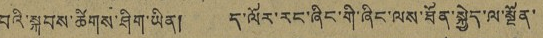བའི་སྐབས་ཚིགས་ཤིག་ཡིན། ད་ལོར་རང་ཞིང་གི་ཞིང་ལས་ཐོན་སྐྱེད་ལ་སྔོན་
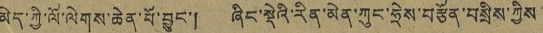མེད་ཀྱི་ལོ་ལེགས་ཆེན་པོ་བྱུང་། ཞིང་སྡེའི་རིན་མེན་ཀུང་ཧྲེས་བརྩོན་བསྲིས་ཀྱིས
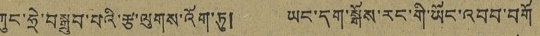ཀུང་ཧྲེ་བསྒྲུབ་པའི་རྩ་ལུགས་འོག་ཏུ། ཡང་དག་སྒོས་རང་གི་ཡོང་འབབ་བགོ
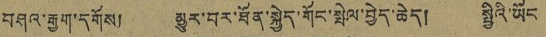བཤའ་རྒྱག་དགོས། མྱུར་བར་ཐོན་སྐྱེད་གོང་སྤེལ་བྱེད་ཆེད། སྤྱིའི་ཡོང
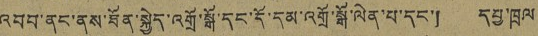འབབ་ནང་ནས་ཐོན་སྐྱེད་འགྲོ་སྒོ་དང་དོ་དམ་འགྲོ་སྒོ་ལེན་པ་དང་། དཔྱ་ཁྲལ
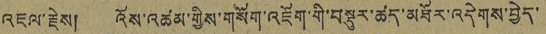འཇལ་རྗེས། འོས་འཚམ་གྱིས་གསོག་འཇོག་གི་བསྡུར་ཚད་མཐོར་འདེགས་བྱེད་
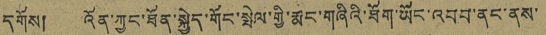དགོས། འོན་ཀྱང་ཐོན་སྐྱེད་གོང་སྤེལ་གྱི་རྨང་གཞིའི་ཐོག་ཡོང་འབབ་ནང་ནས་
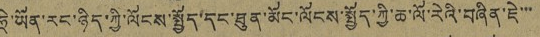ཧྲེ་ཡོན་རང་ཉིད་ཀྱི་ལོངས་སྤྱོད་དང་ཐུན་མོང་ལོངས་སྤྱོད་ཀྱི་ཆ་ལོ་རེའི་བཞིན་ཇེ་་་
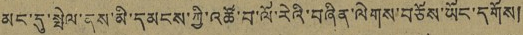མང་དུ་སྤེལ་ནས་མི་དམངས་ཀྱི་འཚོ་བ་ལོ་རེའི་བཞིན་ལེགས་བཅོས་ཡོང་དགོས།
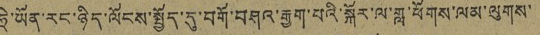ཧྲེ་ཡོན་རང་ཉིད་ལོངས་སྤྱོད་དུ་བགོ་བཤའ་རྒྱག་པའི་སྐོར་ལ་གླ་ཕོགས་ལམ་ལུགས་
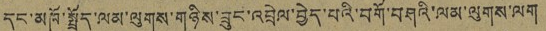དང་མཁོ་སྤྲོད་ལམ་ལུགས་གཉིས་ཟུང་འབྲེལ་བྱེད་པའི་བགོ་གཤའི་ལམ་ལུགས་ལག
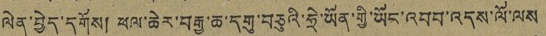ལེན་བྱེད་དགོས། ཕལ་ཆེར་བརྒྱ་ཆ་དགུ་བཅུའི་ཧྲེ་ཡོན་གྱི་ཡོང་འབབ་འདས་ལོ་ལས
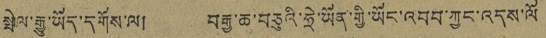སྤེལ་རྒྱུ་ཡོད་དགོས་ལ། བརྒྱ་ཆ་བཅུའི་ཧྲེ་ཡོན་གྱི་ཡོང་འབབ་ཀྱང་འདས་ལོ
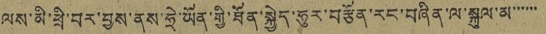ལས་མི་ཕྲི་བར་བྱས་ནས་ཧྲེ་ཡོན་གྱི་ཐོན་སྐྱེད་ཧུར་བརྩོན་རང་བཞིན་ལ་སྐུལ་མ་་་་་་
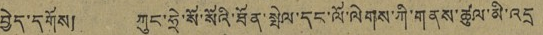བྱེད་དགོས། ཀུང་ཧྲེ་སོ་སོའི་ཐོན་སྤེལ་དང་ལོ་ལེགས་ཀི་གནས་ཚུལ་མི་འདྲ
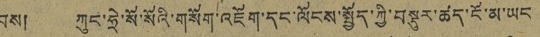བས། ཀུང་ཧྲེ་སོ་སོའི་གསོག་འཇོག་དང་ལོངས་སྤྱོད་ཀྱི་བསྡུར་ཚད་ངོ་མ་ཡང
